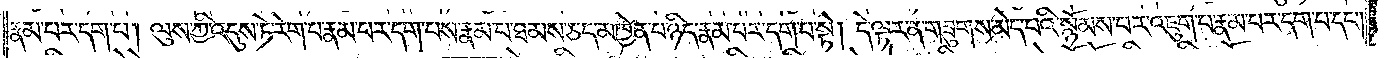རྣམ་པར་དག་པ། ལུས་ཀྱི་འདུས་ཏེ་རེག་པ་རྣམ་པར་དག་པས་རྣམ་པ་ཐམས་ཅད་མཁྱེན་པ་ཉིད་རྣམ་པར་དག་པ་སྟེ། དེ་ལྟར་ན་གཟུགས་མེད་པའི་སྙོམས་པར་འཇུག་པ་རྣམ་པར་དག་པ་དང༌།
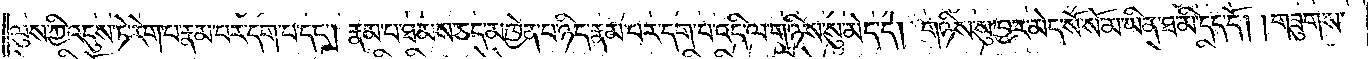ལུས་ཀྱི་འདུས་ཏེ་རེག་པ་རྣམ་པར་དག་པ་དང༌། རྣམ་པ་ཐམས་ཅད་མཁྱེན་པ་ཉིད་རྣམ་པར་དག་པ་འདི་ལ་གཉིས་སུ་མེད་དེ། གཉིས་སུ་བྱར་མེད་སོ་སོ་མ་ཡིན་ཐ་མི་དད་དོ། །གཟུགས་
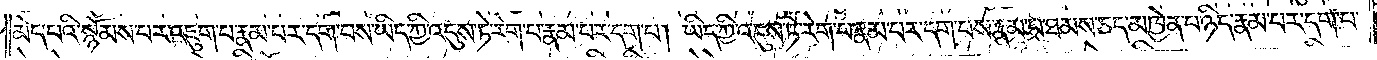མེད་པའི་སྙོམས་པར་འཇུག་པ་རྣམ་པར་དག་པས་ཡིད་ཀྱི་འདུས་ཏེ་རེག་པ་རྣམ་པར་དག་པ། ཡིད་ཀྱི་འདུས་ཏེ་རེག་པ་རྣམ་པར་དག་པས་རྣམ་པ་ཐམས་ཅད་མཁྱེན་པ་ཉིད་རྣམ་པར་དག་པ་
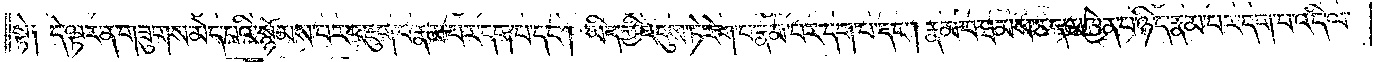སྟེ༑ དེ་ལྟར་ན་གཟུགས་མེད་པའི་སྙོམས་པར་འཇུག་པ་རྣམ་པར་དག་པ་དང༌། ཡིད་ཀྱི་འདུས་ཏེ་རེག་པ་རྣམ་པར་དག་པ་དང༌། རྣམ་པ་ཐམས་ཅད་མཁྱེན་པ་ཉིད་རྣམ་པར་དག་པ་འདི་ལ་
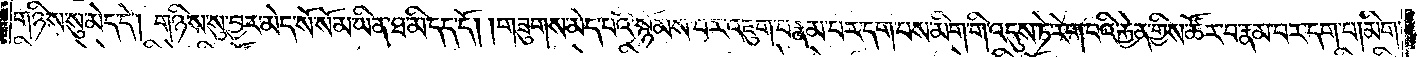གཉིས་སུ་མེད་དེ། གཉིས་སུ་བྱར་མེད་སོ་སོ་མ་ཡིན་ཐ་མི་དད་དོ། །གཟུགས་མེད་པའི་སྙོམས་པར་འཇུག་པ་རྣམ་པར་དག་པས་མིག་གི་འདུས་ཏེ་རེག་པའི་རྐྱེན་གྱིས་ཚོར་བ་རྣམ་པར་དག་པ། མིག་
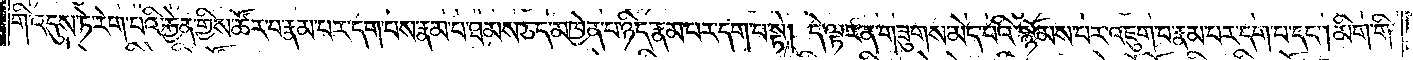གི་འདུས་ཏེ་རེག་པའི་རྐྱེན་གྱིས་ཚོར་བ་རྣམ་བར་དག་པས་རྣམ་པ་ཐམས་ཅད་མཁྱེན་པ་ཉིད་རྣམ་པར་དག་པ་སྟེ། དེ་ལྟར་ན་གཟུགས་མེད་པའི་སྙོམས་པར་འཇུག་པ་རྣམ་པར་དག་པ་དང༌། མིག་གི་
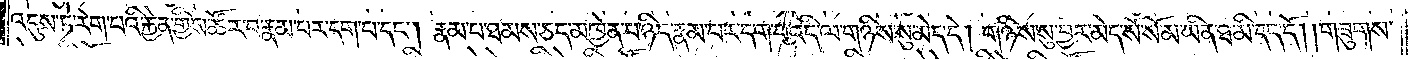འདུས་ཏེ་རེག་པའི་རྐྱེན་གྱིས་ཚོར་བ་རྣམ་པར་དག་པ་དང༌། རྣམ་པ་ཐམས་ཅད་མཁྱེན་པ་ཉིད་རྣམ་པར་དག་པ་འདི་ལ་གཉིས་སུ་མེད་དེ། གཉིས་སུ་བྱར་མེད་སོ་སོ་མ་ཡིན་ཐ་མི་དད་དོ། །གཟུགས་
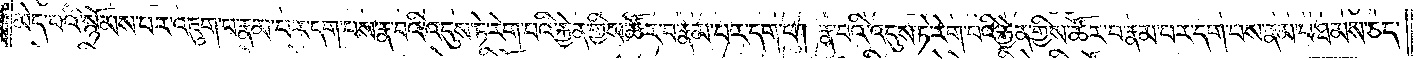མེད་པའི་སྙོམས་པར་འཇུག་པ་རྣམ་པར་དག་པས་རྣ་བའི་འདུས་ཏེ་རེག་པའི་རྐྱེན་གྱིས་ཚོར་བ་རྣམ་པར་དག་པ། རྣ་བའི་འདུས་ཏེ་རེག་པའི་རྐྱེན་གྱིས་ཚོར་བ་རྣམ་པར་དག་པས་རྣམ་པ་ཐམས་ཅད་
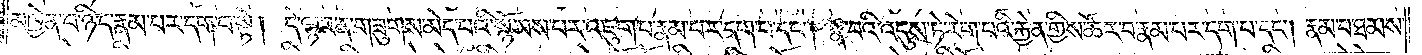མཁྱེན་པ་ཉིད་རྣམ་པར་དག་པ་སྟེ། དེ་ལྟར་ན་གཟུགས་མེད་པའི་སྙོམས་པར་འཇུག་པ་རྣམ་པར་དག་པ་དང༌། རྣ་བའི་འདུས་ཏེ་རེག་པའི་རྐྱེན་གྱིས་ཚོར་བ་རྣམ་པར་དག་པ་དང༌། རྣམ་པ་ཐམས་
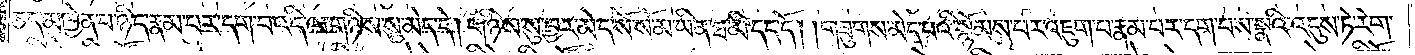ཅད་མཁྱེན་པ་ཉིད་རྣམ་པར་དག་པ་འདི་ལ་གཉིས་སུ་མེད་དེ། གཉིས་སུ་བྱར་མེད་སོ་སོ་མ་ཡིན་ཐ་མི་དད་དོ། །གཟུགས་མེད་པའི་སྙོམས་པར་འཇུག་པ་རྣམ་པར་དག་པས་སྣའི་འདུས་ཏེ་རེག་
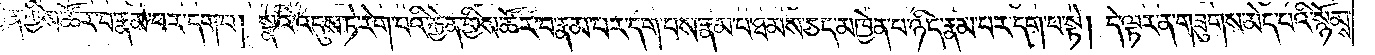པའི་རྐྱེན་གྱིས་ཚོར་བ་རྣམ་པར་དག་པ། སྣའི་འདུས་ཏེ་རེག་པའི་རྐྱེན་གྱིས་ཚོར་བ་རྣམ་པར་དག་པས་རྣམ་པ་ཐམས་ཅད་མཁྱེན་པ་ཉིད་རྣམ་པར་དག་པ་སྟེ། དེ་ལྟར་ན་གཟུགས་མེད་པའི་སྙོམས་
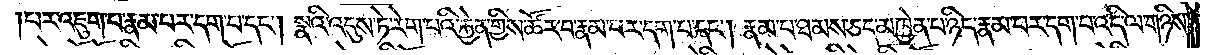པར་འཇུག་པ་རྣམ་པར་དག་པ་དང༌། སྣའི་འདུས་ཏེ་རེག་པའི་རྐྱེན་གྱིས་ཚོར་བ་རྣམ་པར་དག་པ་དང༌། རྣམ་པ་ཐམས་ཅད་མཁྱེན་པ་ཉིད་རྣམ་པར་དག་པ་འདི་ལ་གཉིས་
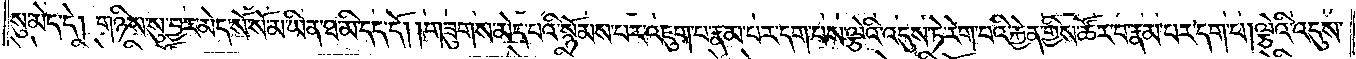སུ་མེད་དེ། གཉིས་སུ་བྱར་མེད་སོ་སོ་མ་ཡིན་ཐ་མི་དད་དོ། །གཟུགས་མེད་པའི་སྙོམས་པར་འཇུག་པ་རྣམ་པར་དག་པས་ལྕེའི་འདུས་ཏེ་རེག་པའི་རྐྱེན་གྱིས་ཚོར་བ་རྣམ་པར་དག་པ། ལྕེའི་འདུས་
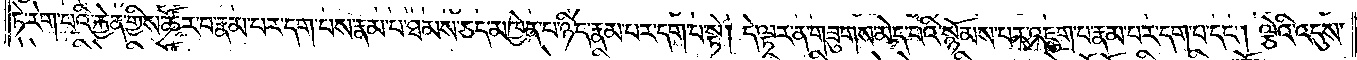ཏེ་རེག་པའི་རྐྱེན་གྱིས་ཚོར་བ་རྣམ་པར་དག་པས་རྣམ་པ་ཐམས་ཅད་མཁྱེན་པ་ཉིད་རྣམ་པར་དག་པ་སྟེ། དེ་ལྟར་ན་གཟུགས་མེད་པའི་སྙོམས་པར་འཇུག་པ་རྣམ་པར་དག་པ་དང༌། ལྕེའི་འདུས་
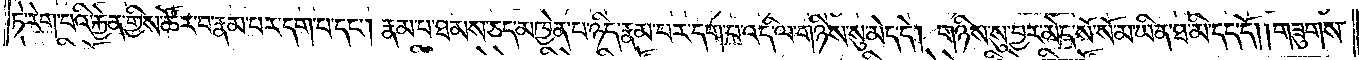ཏེ་རེག་པའི་རྐྱེན་གྱིས་ཚོར་བ་རྣམ་པར་དག་པ་དང༌། རྣམ་པ་ཐམས་ཅད་མཁྱེན་པ་ཉིད་རྣམ་པར་དག་པ་འདི་ལ་གཉིས་སུ་མེད་དེ། གཉིས་སུ་བྱར་མེད་སོ་སོ་མ་ཡིན་ཐ་མི་དད་དོ། །གཟུགས་
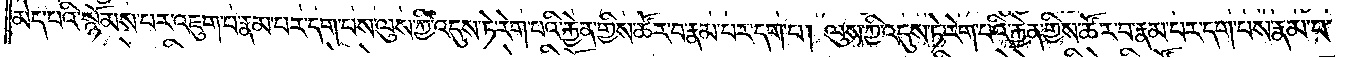མེད་པའི་སྙོམས་བར་འཇུག་པ་རྣམ་པར་དག་པས་ལུས་ཀྱི་འདུས་ཏེ་རེག་པའི་རྐྱེན་གྱིས་ཚོར་བ་རྣམ་པར་དག་པ། ལུས་ཀྱི་འདུས་ཏེ་རེག་པའི་རྐྱེན་གྱིས་ཚོར་བ་རྣམ་པར་དག་པས་རྣམ་པ་
